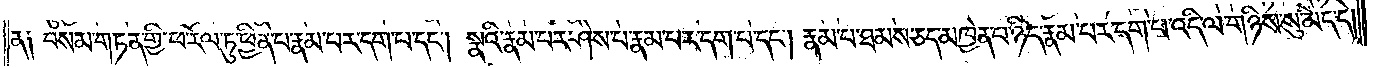ན། བསམ་གཏན་གྱི་ཕ་རོལ་ཏུ་ཕྱིན་པ་རྣམ་པར་དག་པ་དང༌། སྣའི་རྣམ་པར་ཤེས་པ་རྣམ་པར་དག་པ་དང༌། རྣམ་པ་ཐམས་ཅད་མཁྱེན་པ་ཉིད་རྣམ་པར་དག་པ་འདི་ལ་གཉིས་སུ་མེད་དེ།
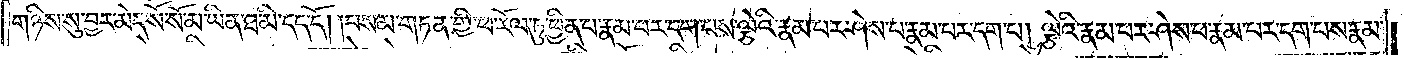གཉིས་སུ་བྱར་མེད་སོ་སོ་མ་ཡིན་ཐ་མི་དད་དོ། །བསམ་གཏན་གྱི་ཕ་རོལ་ཏུ་ཕྱིན་པ་རྣམ་པར་དག་པས་ལྕེའི་རྣམ་པར་ཤེས་པ་རྣམ་པར་དག་པ། ལྕེའི་རྣམ་པར་ཤེས་པ་རྣམ་པར་དག་པས་རྣམ་
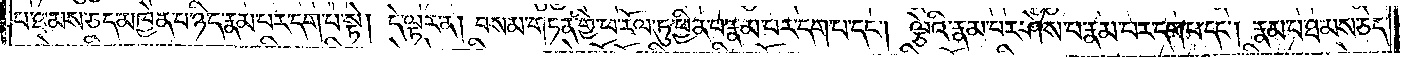པ་ཐམས་ཅད་མཁྱེན་པ་ཉིད་རྣམ་པར་དག་པ་སྟེ། དེ་ལྟར་ན། བསམ་གཏན་གྱི་ཕ་རོལ་ཏུ་ཕྱིན་པ་རྣམ་པར་དག་པ་དང༌། ལྕེའི་རྣམ་པར་ཤེས་པ་རྣམ་པར་དག་པ་དང༌། རྣམ་པ་ཐམས་ཅད་
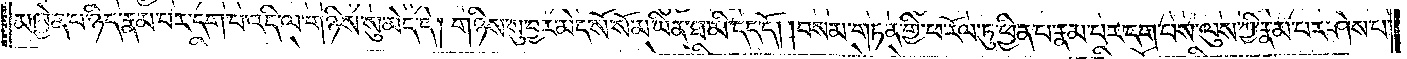མཁྱེན་པ་ཉིད་རྣམ་པར་དག་པ་འདི་ལ་གཉིས་སུ་མེད་དེ། གཉིས་སུ་བྱར་མེད་སོ་སོ་མ་ཡིན་ཐ་མི་དད་དོ། །བསམ་གཏན་གྱི་ཕ་རོལ་ཏུ་ཕྱིན་པ་རྣམ་པར་དག་པས་ལུས་ཀྱི་རྣམ་པར་ཤེས་པ་
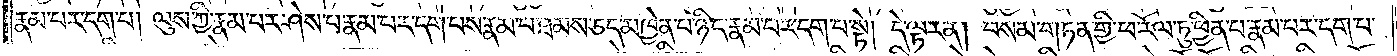རྣམ་པར་དག་པ། ལུས་ཀྱི་རྣམ་པར་ཤེས་པ་རྣམ་པར་དག་པས་རྣམ་པ་ཐམས་ཅད་མཁྱེན་པ་ཉིད་རྣམ་པར་དག་པ་སྟེ། དེ་ལྟར་ན། བསམ་གཏན་གྱི་ཕ་རོལ་ཏུ་ཕྱིན་པ་རྣམ་པར་དག་པ་
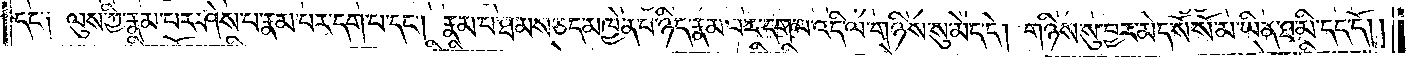དང༌། ལུས་ཀྱི་རྣམ་པར་ཤེས་པ་རྣམ་པར་དག་པ་དང༌། རྣམ་པ་ཐམས་ཅད་མཁྱེན་པ་ཉིད་རྣམ་པར་དག་པ་འདི་ལ་གཉིས་སུ་མེད་དེ། གཉིས་སུ་བྱར་མེད་སོ་སོ་མ་ཡིན་ཐ་མི་དད་དོ། །
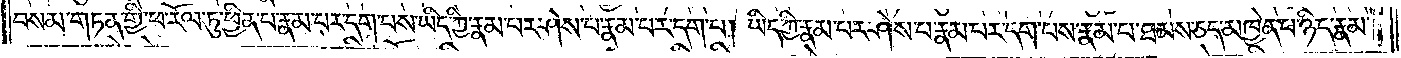བསམ་གཏན་གྱི་ཕ་རོལ་ཏུ་ཕྱིན་པ་རྣམ་པར་དག་པས་ཡིད་ཀྱི་རྣམ་པར་ཤེས་པ་རྣམ་པར་དག་པ། ཡིད་ཀྱི་རྣམ་པར་ཤེས་པ་རྣམ་པར་དག་པས་རྣམ་པ་ཐམས་ཅད་མཁྱེན་པ་ཉིད་རྣམ་
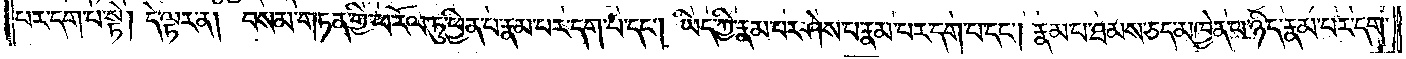པར་དག་པ་སྟེ། དེ་ལྟར་ན། བསམ་གཏན་གྱི་ཕ་རོལ་ཏུ་ཕྱིན་པ་རྣམ་པར་དག་པ་དང༌། ཡིད་ཀྱི་རྣམ་པར་ཤེས་པ་རྣམ་པར་དག་པ་དང༌། རྣམ་པ་ཐམས་ཅད་མཁྱེན་པ་ཉིད་རྣམ་པར་དག་
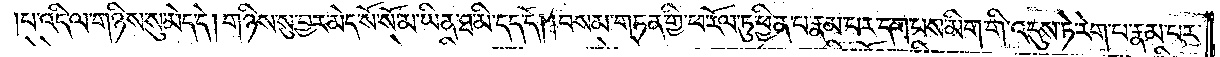པ་འདི་ལ་གཉིས་སུ་མེད་དེ། གཉིས་སུ་བྱར་མེད་སོ་སོ་མ་ཡིན་ཐ་མི་དད་དོ། །བསམ་གཏན་གྱི་ཕ་རོལ་ཏུ་ཕྱིན་པ་རྣམ་པར་དག་པས་མིག་གི་འདུས་ཏེ་རེག་པ་རྣམ་པར་
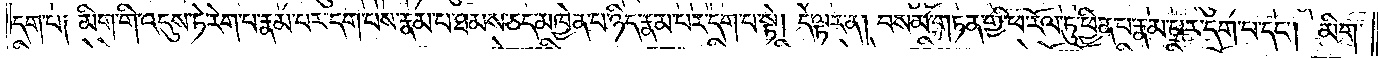དག་པ། མིག་གི་འདུས་ཏེ་རེག་པ་རྣམ་པར་དག་པས་རྣམ་པ་ཐམས་ཅད་མཁྱེན་པ་ཉིད་རྣམ་པར་དག་པ་སྟེ། དེ་ལྟར་ན། བསམ་གཏན་གྱི་ཕ་རོལ་ཏུ་ཕྱིན་པ་རྣམ་པར་དག་པ་དང༌། མིག་
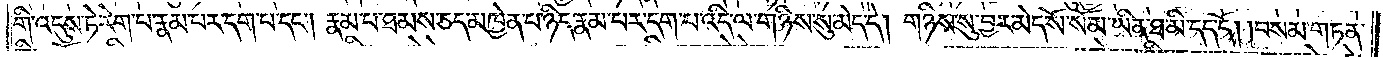གི་འདུས་ཏེ་རེག་པ་རྣམ་པར་དག་པ་དང༌། རྣམ་པ་ཐམས་ཅད་མཁྱེན་པ་ཉིད་རྣམ་པར་དག་པ་འདི་ལ་གཉིས་སུ་མེད་དེ། གཉིས་སུ་བྱར་མེད་སོ་སོ་མ་ཡིན་ཐ་མི་དད་དོ། །བསམ་གཏན་
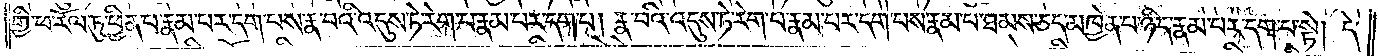གྱི་ཕ་རོལ་ཏུ་ཕྱིན་པ་རྣམ་པར་དག་པས་རྣ་བའི་འདུས་ཏེ་རེག་པ་རྣམ་པར་དག་པ། རྣ་བའི་འདུས་ཏེ་རེག་པ་རྣམ་པར་དག་པས་རྣམ་པ་ཐམས་ཅད་མཁྱེན་པ་ཉིད་རྣམ་པར་དག་པ་སྟེ། དེ་
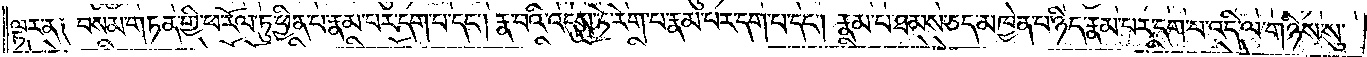ལྟར་ན། བསམ་གཏན་གྱི་ཕ་རོལ་ཏུ་ཕྱིན་པ་རྣམ་པར་དག་པ་དང༌། རྣ་བའི་འདུས་ཏེ་རེག་པ་རྣམ་པར་དག་པ་དང༌། རྣམ་པ་ཐམས་ཅད་མཁྱེན་པ་ཉིད་རྣམ་པར་དག་པ་འདི་ལ་གཉིས་སུ་
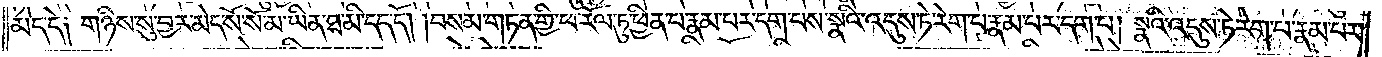མེད་དེ། གཉིས་སུ་བྱར་མེད་སོ་སོ་མ་ཡིན་ཐ་མི་དད་དོ། །བསམ་གཏན་གྱི་ཕ་རོལ་ཏུ་ཕྱིན་པ་རྣམ་པར་དག་པས་སྣའི་འདུས་ཏེ་རེག་པ་རྣམ་པར་དག་པ། སྣའི་འདུས་ཏེ་རེག་པ་རྣམ་པར་
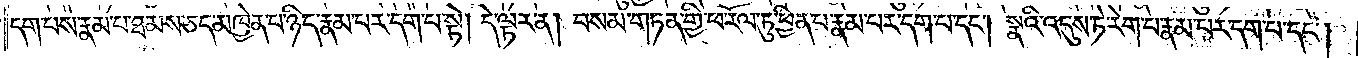དག་པས་རྣམ་པ་ཐམས་ཅད་མཁྱེན་པ་ཉིད་རྣམ་པར་དག་པ་སྟེ། དེ་ལྟར་ན། བསམ་གཏན་གྱི་ཕ་རོལ་ཏུ་ཕྱིན་པ་རྣམ་པར་དག་པ་དང༌། སྣའི་འདུས་ཏེ་རེག་པ་རྣམ་པར་དག་པ་དང༌།
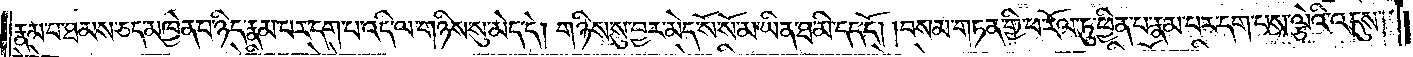རྣམ་པ་ཐམས་ཅད་མཁྱེན་པ་ཉིད་རྣམ་པར་དག་པ་འདི་ལ་གཉིས་སུ་མེད་དེ། གཉིས་སུ་བྱར་མེད་སོ་སོ་མ་ཡིན་ཐ་མི་དད་དོ། །བསམ་གཏན་གྱི་ཕ་རོལ་ཏུ་ཕྱིན་པ་རྣམ་པར་དག་པས་ལྕེའི་འདུས་
